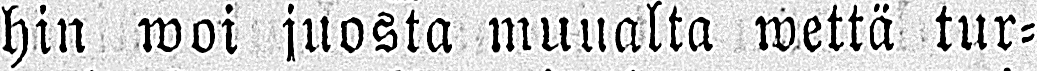hin woi juosta muualta wettä tur-
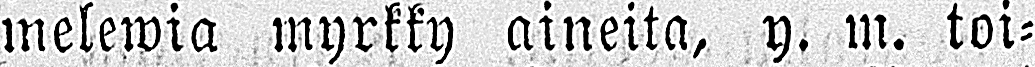melewia myrkky aineita, y. m. toi-
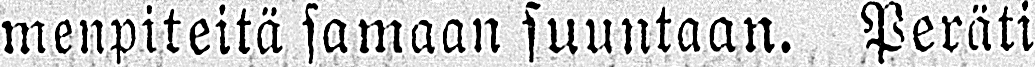menpiteitä samaan suuntaan. Peräti
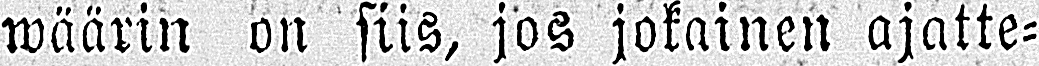wäärin on siis, jos jokainen ajatte-
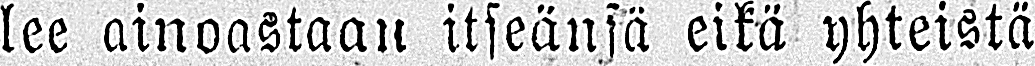lee ainoastaan itseänsä eikä yhteistä
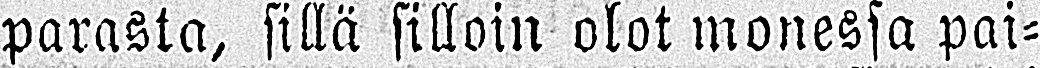parasta, sillä silloin olot monessa pai-
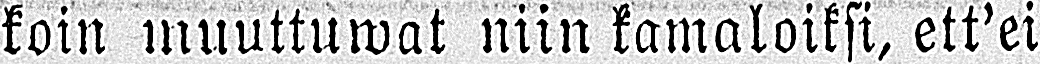koin muuttuwat niin kamaloiksi, ett'ei
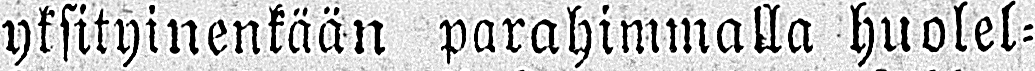yksityinenkään parahimmalla huolel-
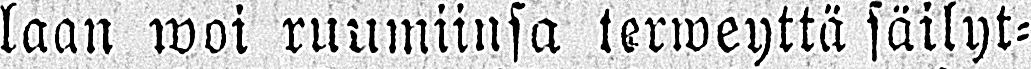laan woi ruumiinsa terweyttä säilyt-
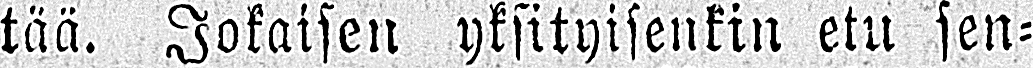tää. Jokaisen yksityisenkin etu sen-
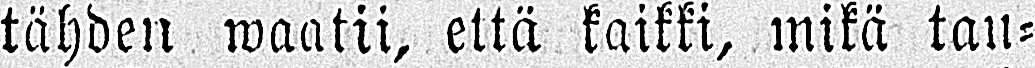tähden waatii, että kaikki, mikä tau-
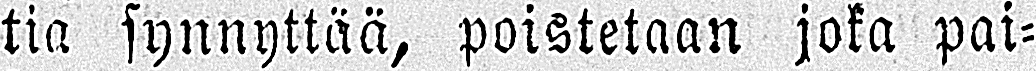tia synnyttää, poistetaan joka pai-
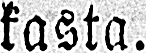kasta.
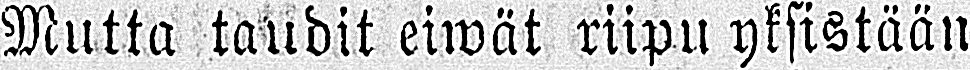Mutta taudit eiwät riipu yksistään
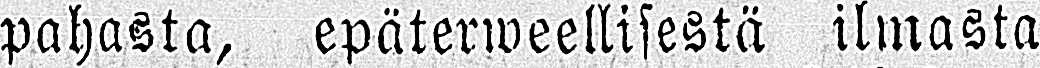pahasta, epäterweellisestä ilmasta
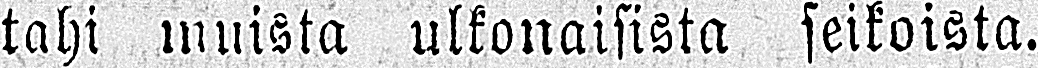tahi muista ulkonaisista seikoista.
